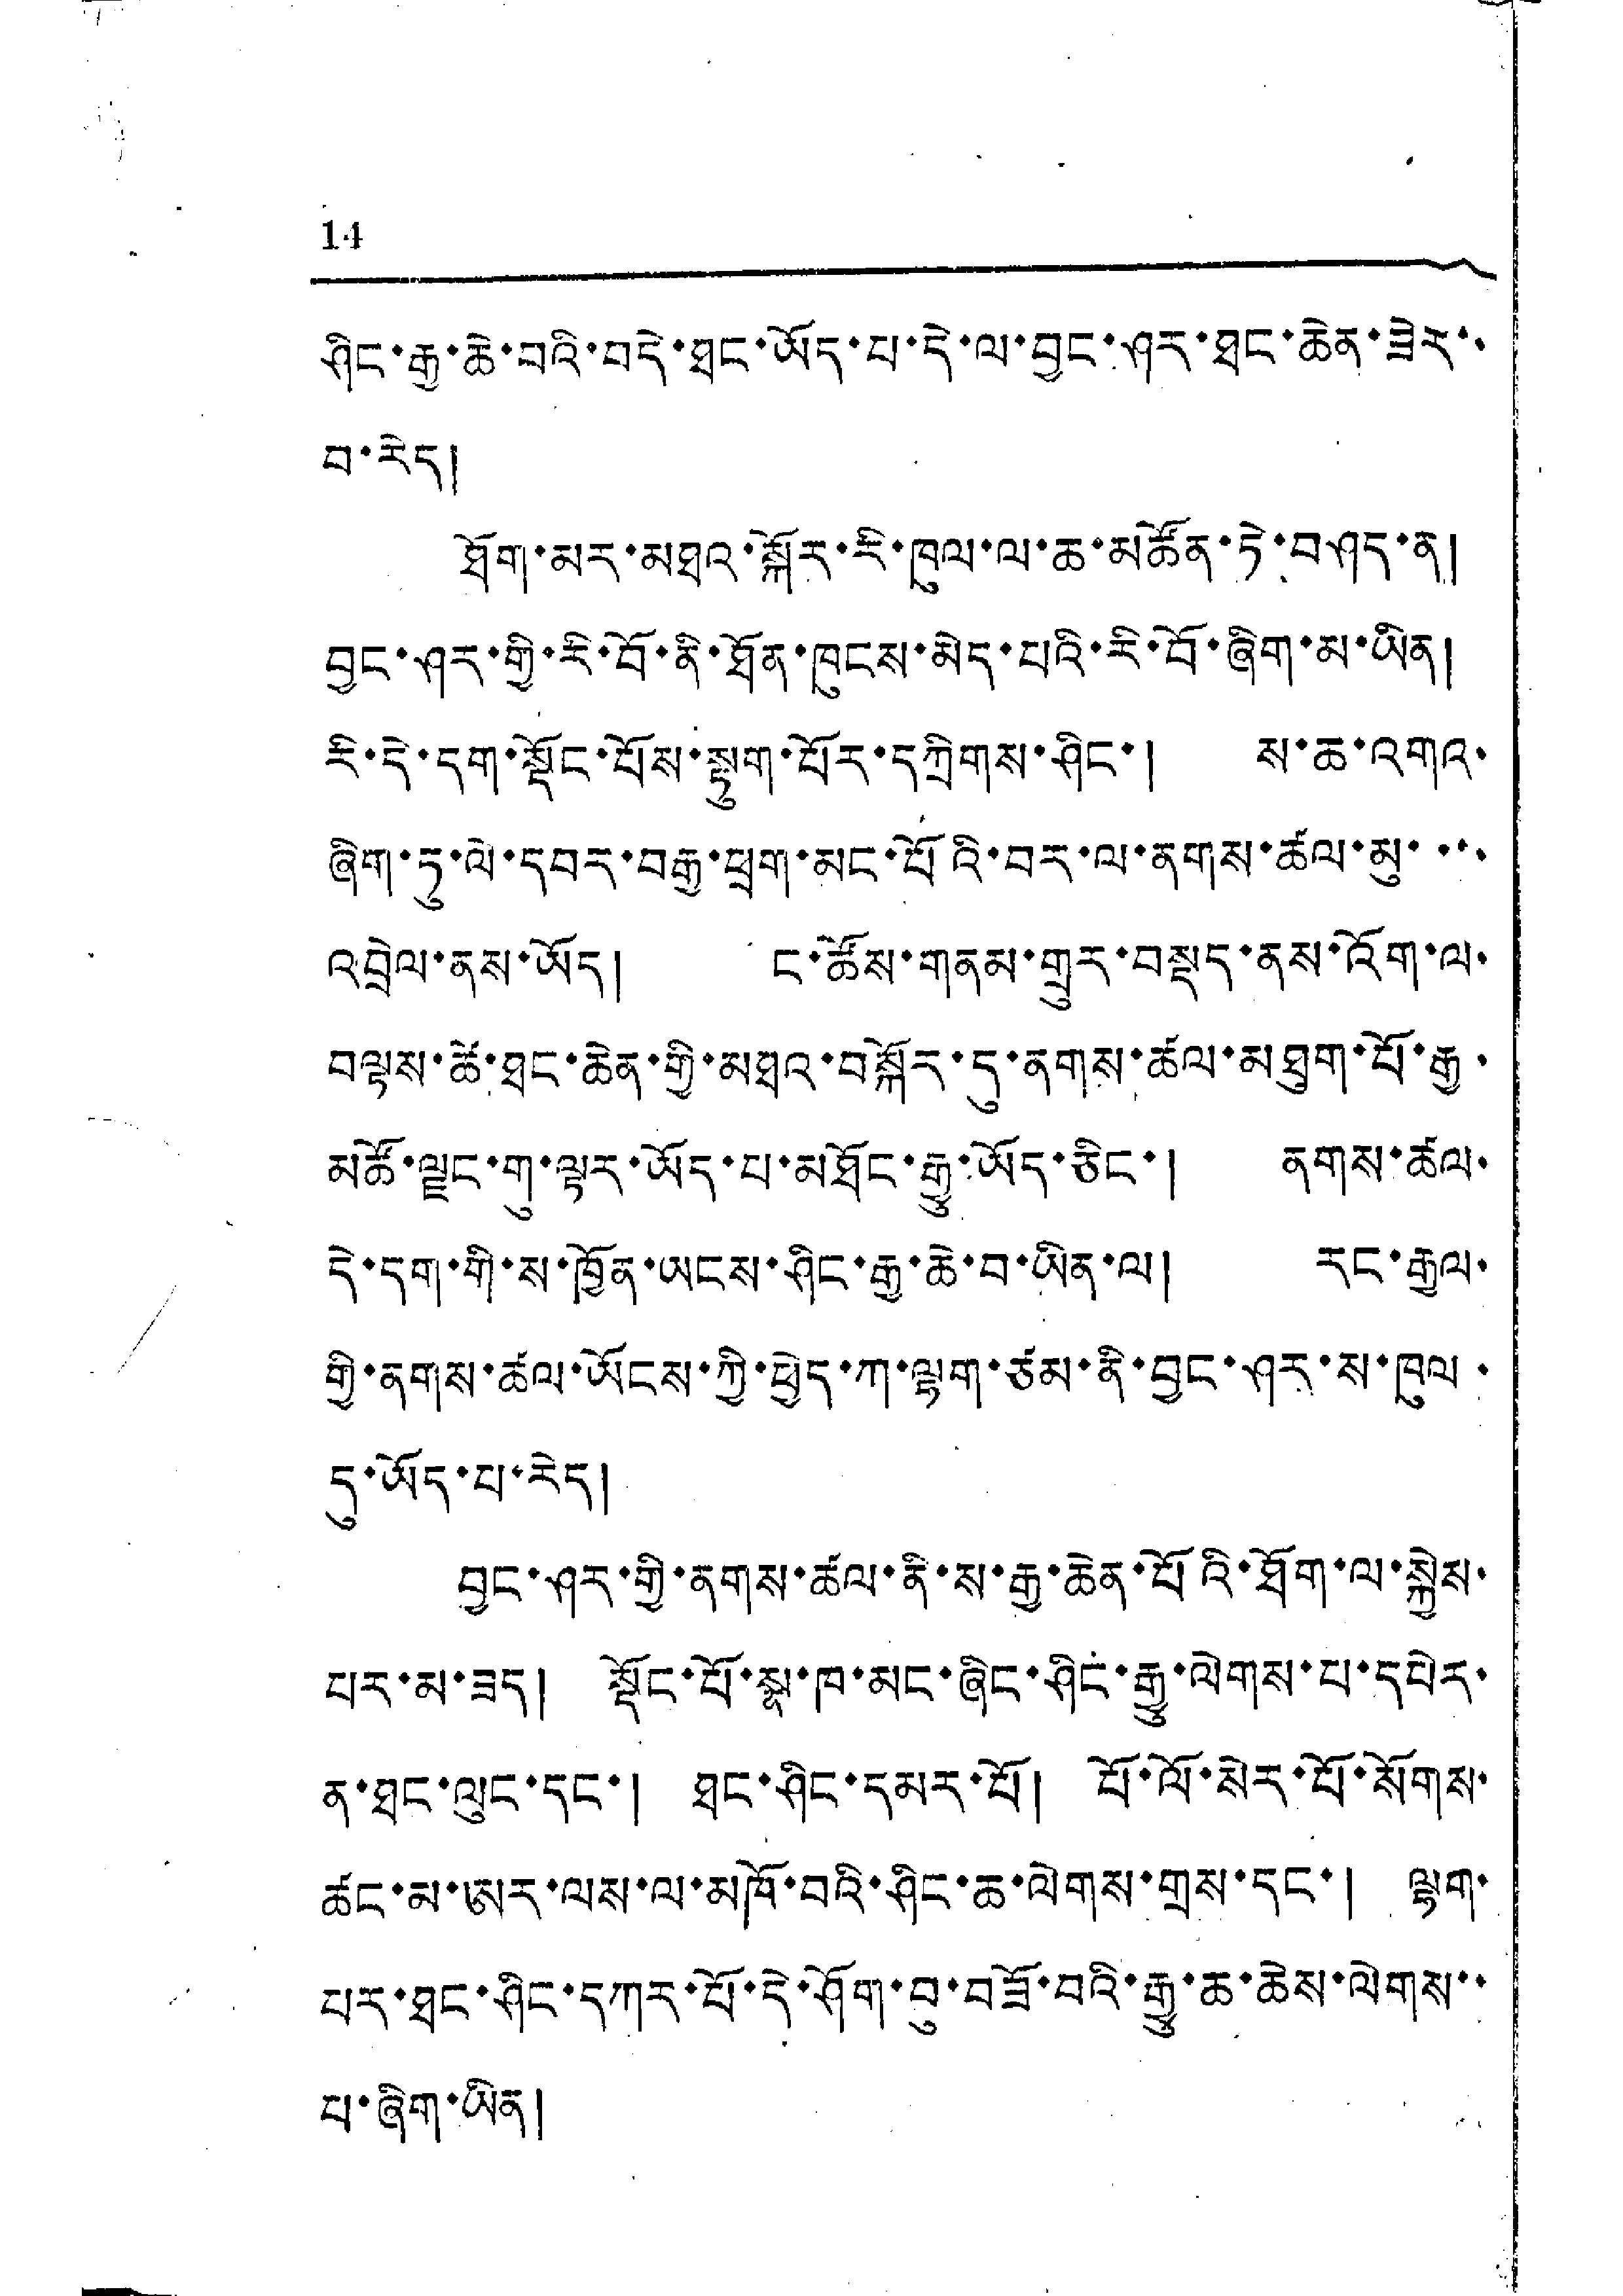14
ཤིང་རྒྱ་ཆེ་བའི་བདེ་ཐང་ཡོད་པ་དེ་ལ་བྱང་ཤར་ཐང་ཆེན་ཟེར་་
བ་རེད།
ཐོག་མར་མཐའ་སྐོར་རི་ཁུལ་ལ་ཆ་མཚོན་ཏེ་བཤད་ན།
བྱང་ཤར་གྱི་རི་བོ་ནི་ཐོན་ཁུངས་མེད་པའི་རི་བོ་ཞིག་མ་ཡིན།
རི་དེ་དག་སྡོང་པོས་སྟུག་པོར་དཀྲིགས་ཤིང་། ས་ཆ་འགའ་
ཞིག་ཏུ་ལེ་དབར་བརྒྱ་ཕྲག་མང་པོའི་བར་ལ་ནགས་ཚལ་མུ་་་་
འབྲེལ་ནས་ཡོད། ང་ཚོས་གནམ་གྲུར་བསྡད་ནས་འོག་ལ་
བལྟས་ཚེ་ཐང་ཆེན་གྱི་མཐའ་བསྐོར་དུ་ནགས་ཚལ་མཐུག་པོ་རྒྱ་
མཚོ་ལྗང་གུ་ལྟར་ཡོད་པ་མཐོང་རྒྱུ་ཡོད་ཅིང་། ནགས་ཚལ་
དེ་དག་གི་ས་ཁྱོན་ཡངས་ཤིང་རྒྱ་ཆེ་བ་ཡིན་ལ། རང་རྒྱལ་
གྱི་ནགས་ཚལ་ཡོངས་ཀྱི་ཕྱེད་ཀ་ལྷག་ཙམ་ནི་བྱང་ཤར་ས་ཁུལ་
དུ་ཡོད་པ་རེད།
བྱང་ཤར་གྱི་ནགས་ཚལ་ནི་ས་རྒྱ་ཆེན་པོའི་ཐོག་ལ་སྐྱེས་
པར་མ་ཟད། སྡོང་པོ་སྣ་ཁ་མང་ཞིང་ཤིང་རྒྱུ་ལེགས་པ་དཔེར་
ན་ཐང་ལུང་དང་། ཐང་ཤིང་དམར་པོ། པོ་ལོ་སེར་པོ་སོགས་
ཚང་མ་ཨར་ལས་ལ་མཁོ་བའི་ཤིང་ཆ་ལེགས་གྲས་དང་། ལྷག་
པར་ཐང་ཤིང་དཀར་པོ་དེ་ཤོག་བུ་བཟོ་བའི་རྒྱུ་ཆ་ཆེས་ལེགས་་
པ་ཞིག་ཡིན།
